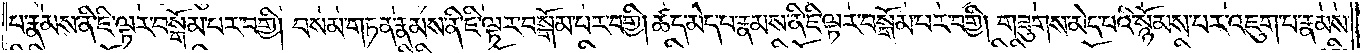པ་རྣམས་ནི་ཇི་ལྟར་བསྒོམ་པར་བགྱི། བསམ་གཏན་རྣམས་ནི་ཇི་ལྟར་བསྒོམ་པར་བགྱི། ཚད་མེད་པ་རྣམས་ནི་ཇི་ལྟར་བསྒོམ་པར་བགྱི། གཟུགས་མེད་པའི་སྙོམས་པར་འཇུག་པ་རྣམས་
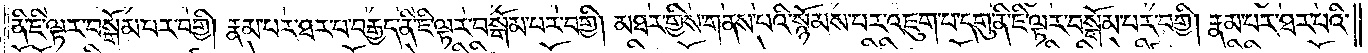ནི་ཇི་ལྟར་བསྒོམ་པར་བགྱི། རྣམ་པར་ཐར་པ་བརྒྱད་ནི་ཇི་ལྟར་བསྒོམ་པར་བགྱི། མཐར་གྱིས་གནས་པའི་སྙོམས་པར་འཇུག་པ་དགུ་ནི་ཇི་ལྟར་བསྒོམ་པར་བགྱི། རྣམ་པར་ཐར་པའི་
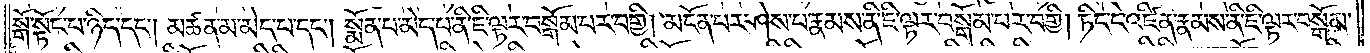སྒོ་སྟོང་པ་ཉིད་དང༌། མཚན་མ་མེད་པ་དང༌། སྨོན་པ་མེད་པ་ནི་ཇི་ལྟར་བསྒོམ་པར་བགྱི། མངོན་པར་ཤེས་པ་རྣམས་ནི་ཇི་ལྟར་བསྒོམ་པར་བགྱི། ཏིང་ངེ་འཛིན་རྣམས་ནི་ཇི་ལྟར་བསྒོམ་
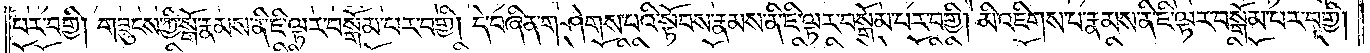པར་བགྱི། གཟུངས་ཀྱི་སྒོ་རྣམས་ནི་ཇི་ལྟར་བསྒོམ་པར་བགྱི། དེ་བཞིན་གཤེགས་པའི་སྟོབས་རྣམས་ནི་ཇི་ལྟར་བསྒོམ་པར་བགྱི། མི་འཇིགས་པ་རྣམས་ནི་ཇི་ལྟར་བསྒོམ་པར་བགྱི།
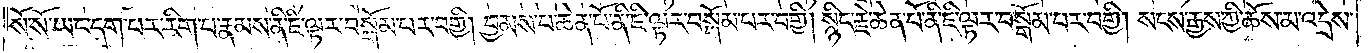སོ་སོ་ཡང་དག་པར་རིག་པ་རྣམས་ནི་ཇི་ལྟར་བསྒོམ་པར་བགྱི། བྱམས་པ་ཆེན་པོ་ནི་ཇི་ལྟར་བསྒོམ་པར་བགྱི། སྙིང་རྗེ་ཆེན་པོ་ནི་ཇི་ལྟར་བསྒོམ་པར་བགྱི། སངས་རྒྱས་ཀྱི་ཆོས་མ་འདྲེས་
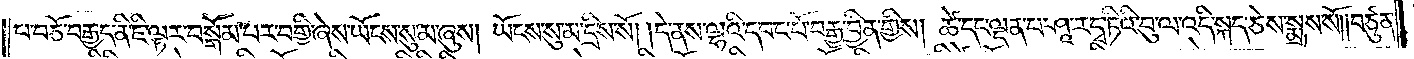པ་བཅོ་བརྒྱད་ནི་ཇི་ལྟར་བསྒོམ་པར་བགྱི་ཞེས་ཡོངས་སུ་མ་ཞུས། ཡོངས་སུ་མ་དྲིས་སོ། །དེ་ནས་ལྷའི་དབང་པོ་བརྒྱ་བྱིན་གྱིས། ཚེ་དང་ལྡན་པ་ཤཱ་རདྭ་ཏིའི་བུ་ལ་འདི་སྐད་ཅེས་སྨྲས་སོ། །བཙུན་
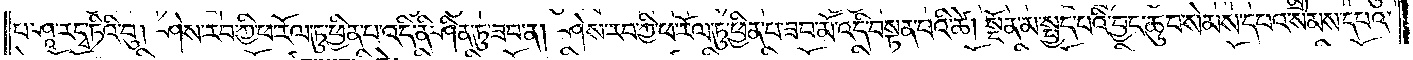པ་ཤཱ་རདྭ་ཏིའི་བུ། ཤེས་རབ་ཀྱི་ཕ་རོལ་ཏུ་ཕྱིན་པ་འདི་ནི་ཤིན་ཏུ་ཟབ་ན། ཤེས་རབ་ཀྱི་ཕ་རོལ་ཏུ་ཕྱིན་པ་ཟབ་མོ་འདི་བསྟན་པའི་ཚེ། སྔོན་མ་སྤྱད་པའི་བྱང་ཆུབ་སེམས་དཔའ་སེམས་དཔའ་
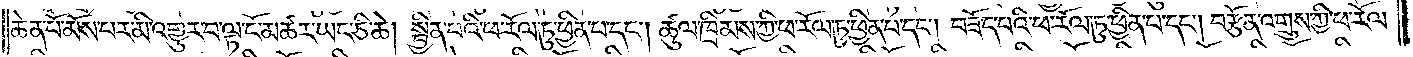ཆེན་པོ་མོས་པར་མི་འགྱུར་བ་ལྟ་ངོ་མཚར་ཡང་ཅི་ཆེ། སྦྱིན་པའི་ཕ་རོལ་ཏུ་ཕྱིན་པ་དང༌། ཚུལ་ཁྲིམས་ཀྱི་ཕ་རོལ་ཏུ་ཕྱིན་པ་དང༌། བཟོད་པའི་ཕ་རོལ་ཏུ་ཕྱིན་པ་དང༌། བརྩོན་འགྲུས་ཀྱི་ཕ་རོལ་
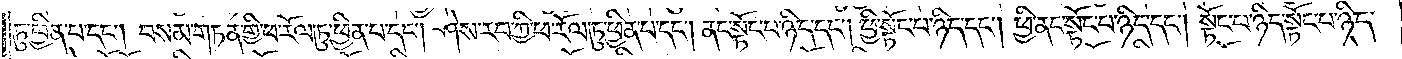ཏུ་ཕྱིན་པ་དང༌། བསམ་གཏན་གྱི་ཕ་རོལ་ཏུ་ཕྱིན་པ་དང༌། ཤེས་རབ་ཀྱི་ཕ་རོལ་ཏུ་ཕྱིན་པ་དང༌། ནང་སྟོང་པ་ཉིད་དང༌། ཕྱི་སྟོང་པ་ཉིད་དང༌། ཕྱི་ནང་སྟོང་པ་ཉིད་དང༌། སྟོང་པ་ཉིད་སྟོང་པ་ཉིད་
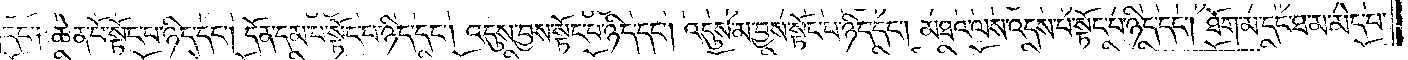དང་༑ ཆེན་པོ་སྟོང་པ་ཉིད་དང༌། དོན་དམ་པ་སྟོང་པ་ཉིད་དང༌། འདུས་བྱས་སྟོང་པ་ཉིད་དང༌། འདུས་མ་བྱས་སྟོང་པ་ཉིད་དང༌། མཐའ་ལས་འདས་པ་སྟོང་པ་ཉིད་དང༌། ཐོག་མ་དང་ཐ་མ་མེད་པ་
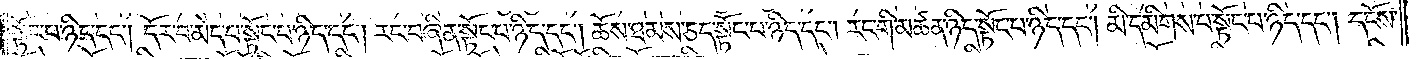སྟོང་པ་ཉིད་དང༌། དོར་བ་མེད་པ་སྟོང་པ་ཉིད་དང༌། རང་བཞིན་སྟོང་པ་ཉིད་དང༌། ཆོས་ཐམས་ཅད་སྟོང་པ་ཉིད་དང༌། རང་གི་མཚན་ཉིད་སྟོང་པ་ཉིད་དང༌། མི་དམིགས་པ་སྟོང་པ་ཉིད་དང༌། དངོས་
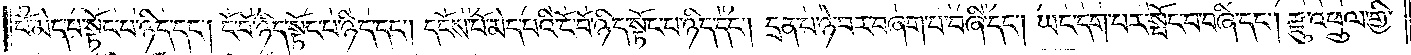པོ་མེད་པ་སྟོང་པ་ཉིད་དང༌། ངོ་བོ་ཉིད་སྟོང་པ་ཉིད་དང༌། དངོས་པོ་མེད་པའི་ངོ་བོ་ཉིད་སྟོང་པ་ཉིད་དང༌། དྲན་པ་ཉེ་བར་བཞག་པ་བཞི་དང༌། ཡང་དག་པར་སྤོང་བ་བཞི་དང༌། རྫུ་འཕྲུལ་གྱི་
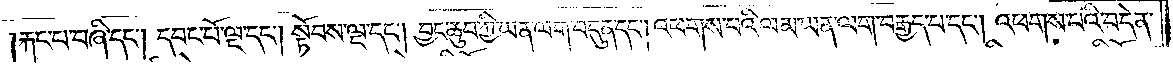རྐང་པ་བཞི་དང༌། དབང་པོ་ལྔ་དང༌། སྟོབས་ལྔ་དང༌། བྱང་ཆུབ་ཀྱི་ཡན་ལག་བདུན་དང༌། འཕགས་པའི་ལམ་ཡན་ལག་བརྒྱད་པ་དང༌། འཕགས་པའི་བདེན་
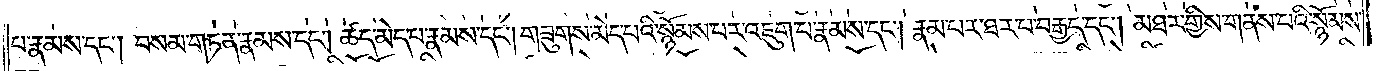པ་རྣམས་དང༌། བསམ་གཏན་རྣམས་དང༌། ཚད་མེད་པ་རྣམས་དང༌། གཟུགས་མེད་པའི་སྙོམས་པར་འཇུག་པ་རྣམས་དང༌། རྣམ་པར་ཐར་པ་བརྒྱད་དང༌། མཐར་གྱིས་གནས་པའི་སྙོམས་
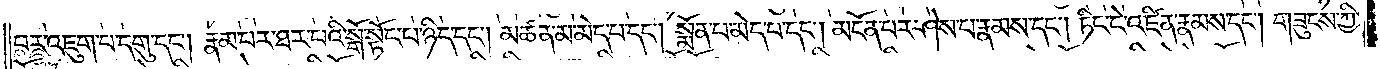པར་འཇུག་པ་དགུ་དང༌། རྣམ་པར་ཐར་པའི་སྒོ་སྟོང་པ་ཉིད་དང༌། མཚན་མ་མེད་པ་དང༌། སྨོན་པ་མེད་པ་དང༌། མངོན་པར་ཤེས་པ་རྣམས་དང༌། ཏིང་ངེ་འཛིན་རྣམས་དང༌། གཟུངས་ཀྱི་
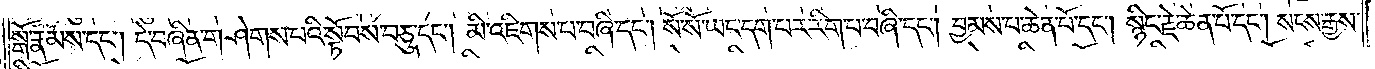སྒོ་རྣམས་དང༌། དེ་བཞིན་གཤེགས་པའི་སྟོབས་བཅུ་དང༌། མི་འཇིགས་པ་བཞི་དང༌། སོ་སོ་ཡང་དག་པར་རིག་པ་བཞི་དང༌། བྱམས་པ་ཆེན་པོ་དང༌། སྙིང་རྗེ་ཆེན་པོ་དང༌། སངས་རྒྱས་
